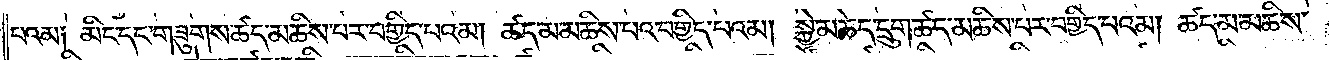པའམ༑ མིང་དང་གཟུགས་ཚད་མཆིས་པར་བགྱིད་པའམ། ཚད་མ་མཆིས་པར་བགྱིད་པའམ། སྐྱེ་མཆེད་དྲུག་ཚད་མཆིས་པར་བགྱིད་པའམ། ཚད་མ་མཆིས་
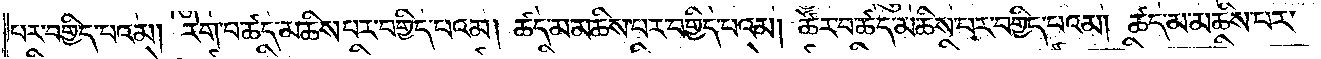པར་བགྱིད་པའམ། རེག་པ་ཚད་མཆིས་པར་བགྱིད་པའམ། ཚད་མ་མཆིས་པར་བགྱིད་པའམ། ཚོར་བ་ཚད་མཆིས་པར་བགྱིད་པའམ། ཚད་མ་མཆིས་པར་
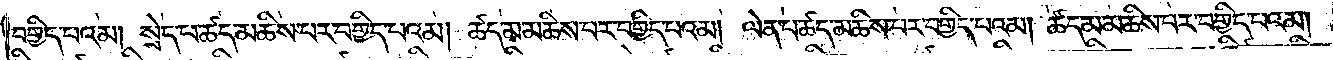བགྱིད་པའམ། སྲེད་པ་ཚད་མཆིས་པར་བགྱིད་པའམ། ཚད་མ་མཆིས་པར་བགྱིད་པའམ། ལེན་པ་ཚད་མཆིས་པར་བགྱིད་པའམ། ཚད་མ་མཆིས་པར་བགྱིད་པའམ།
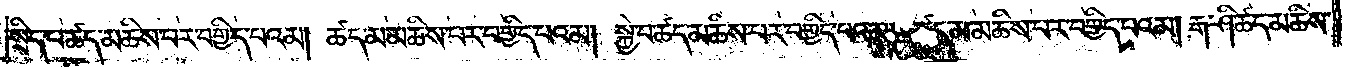སྲིད་པ་ཚད་མཆིས་པར་བགྱིད་པའམ། ཚད་མ་མཆིས་པར་བགྱིད་པའམ། སྐྱེ་བ་ཚད་མཆིས་པར་བགྱིད་པའམ། ཚད་མ་མཆིས་པར་བགྱིད་པའམ། རྒ་ཤི་ཚད་མཆིས་
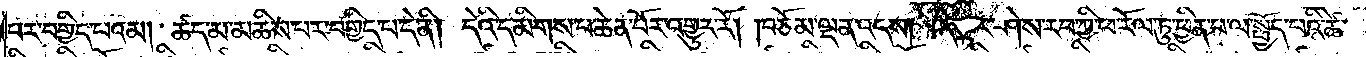པར་བགྱིད་པའམ། ཚད་མ་མཆིས་པར་བགྱིད་པ་དེ་ནི། དེའི་དམིགས་པ་ཆེན་པོར་འགྱུར་རོ། །བཅོམ་ལྡན་འདས། དེ་ལྟར་ཤེས་རབ་ཀྱི་ཕ་རོལ་ཏུ་ཕྱིན་པ་ལ་སྤྱོད་པའི་ཚེ་
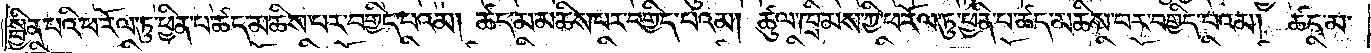སྦྱིན་པའི་ཕ་རོལ་ཏུ་ཕྱིན་པ་ཚད་མཆིས་པར་བགྱིད་པའམ། ཚད་མ་མཆིས་པར་བགྱིད་པའམ། ཚུལ་ཁྲིམས་ཀྱི་ཕ་རོལ་ཏུ་ཕྱིན་པ་ཚད་མཆིས་པར་བགྱིད་པའམ། ཚད་མ་
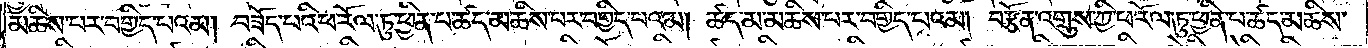མཆིས་པར་བགྱིད་པའམ། བཟོད་པའི་ཕ་རོལ་ཏུ་ཕྱིན་པ་ཚད་མཆིས་པར་བགྱིད་པའམ། ཚད་མ་མཆིས་པར་བགྱིད་པའམ། བརྩོན་འགྲུས་ཀྱི་ཕ་རོལ་ཏུ་ཕྱིན་པ་ཚད་མཆིས་
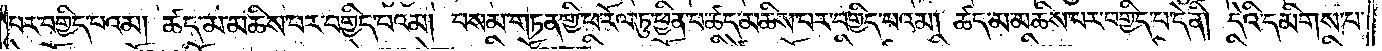པར་བགྱིད་པའམ། ཚད་མ་མཆིས་པར་བགྱིད་པའམ། བསམ་གཏན་གྱི་ཕ་རོལ་ཏུ་ཕྱིན་པ་ཚད་མཆིས་པར་བགྱིད་པའམ། ཚད་མ་མཆིས་པར་བགྱིད་པ་དེ་ནི། དེའི་དམིགས་པ་
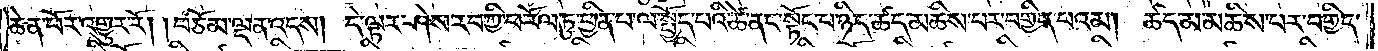ཆེན་པོར་འགྱུར་རོ། །བཅོམ་ལྡན་འདས། དེ་ལྟར་ཤེས་རབ་ཀྱི་ཕ་རོལ་ཏུ་ཕྱིན་པ་ལ་སྤྱོད་པའི་ཚེ་ནང་སྟོང་པ་ཉིད་ཚད་མཆིས་པར་བགྱིད་པའམ། ཚད་མ་མཆིས་པར་བགྱིད་
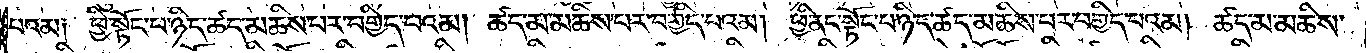པའམ༑ ཕྱི་སྟོང་པ་ཉིད་ཚད་མཆིས་པར་བགྱིད་པའམ། ཚད་མ་མཆིས་པར་བགྱིད་པའམ། ཕྱི་ནང་སྟོང་པ་ཉིད་ཚད་མཆིས་པར་བགྱིད་པའམ། ཚད་མ་མཆིས་
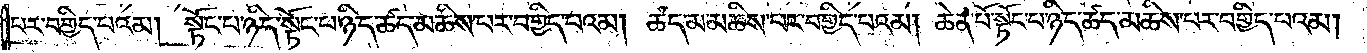པར་བགྱིད་པའམ། སྟོང་པ་ཉིད་སྟོང་པ་ཉིད་ཚད་མཆིས་པར་བགྱིད་པའམ། ཚད་མ་མཆིས་པར་བགྱིད་པའམ། ཆེན་པོ་སྟོང་པ་ཉིད་ཚད་མཆིས་པར་བགྱིད་པའམ།
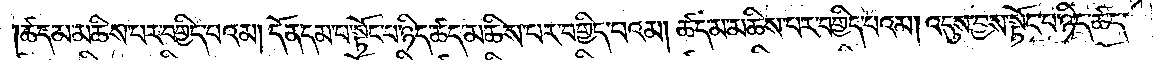ཚད་མ་མཆིས་པར་བགྱིད་པའམ། དོན་དམ་པ་སྟོང་པ་ཉིད་ཚད་མཆིས་པར་བགྱིད་པའམ། ཚད་མ་མཆིས་པར་བགྱིད་པའམ། འདུས་བྱས་སྟོང་པ་ཉིད་ཚད་
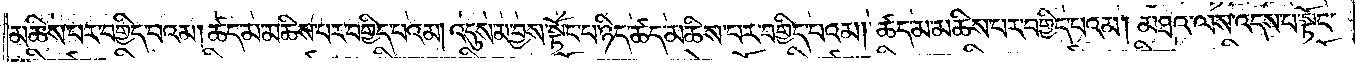མཆིས་པར་བགྱིད་པའམ། ཚད་མ་མཆིས་པར་བགྱིད་པའམ། འདུས་མ་བྱས་སྟོང་པ་ཉིད་ཚད་མཆིས་པར་བགྱིད་པའམ། ཚད་མ་མཆིས་པར་བགྱིད་པའམ། མཐའ་ལས་འདས་པ་སྟོང་
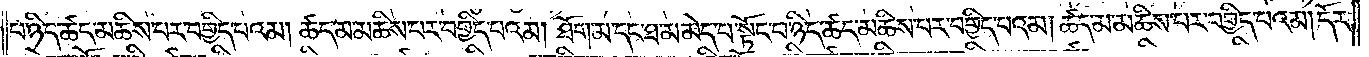པ་ཉིད་ཚད་མཆིས་པར་བགྱིད་པའམ། ཚད་མ་མཆིས་པར་བགྱིད་པའམ། ཐོག་མ་དང་ཐ་མ་མེད་པ་སྟོང་པ་ཉིད་ཚད་མཆིས་པར་བགྱིད་པའམ། ཚད་མ་མཆིས་པར་བགྱིད་པའམ། དོར་
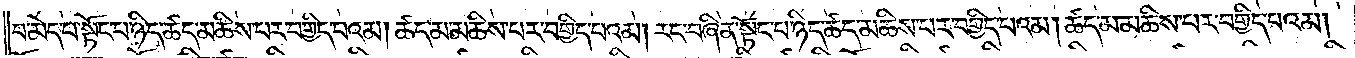བ་མེད་པ་སྟོང་པ་ཉིད་ཚད་མཆིས་པར་བགྱིད་པའམ། ཚད་མ་མཆིས་པར་བགྱིད་པའམ། རང་བཞིན་སྟོང་པ་ཉིད་ཚད་མཆིས་པར་བགྱིད་པའམ། ཚད་མ་མཆིས་པར་བགྱིད་པའམ།
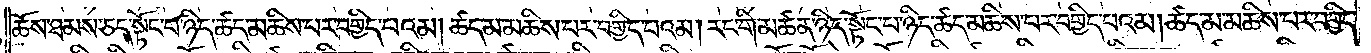ཆོས་ཐམས་ཅད་སྟོང་པ་ཉིད་ཚད་མཆིས་པར་བགྱིད་པའམ། ཚད་མ་མཆིས་པར་བགྱིད་པའམ། རང་གི་མཚན་ཉིད་སྟོང་པ་ཉིད་ཚད་མཆིས་པར་བགྱིད་པའམ། ཚད་མ་མཆིས་པར་བགྱིད་
